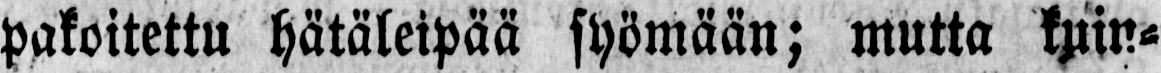pakoitettu hätäleipää syömään; mutta kuin-
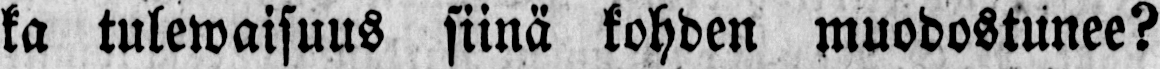ka tulewaisuus siinä kohden muodostunee?
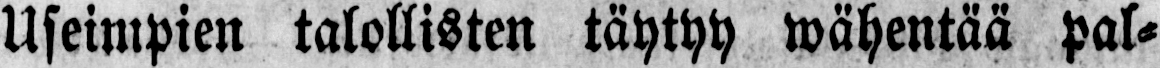Useimpien talollisten täytyy wähentää pal-
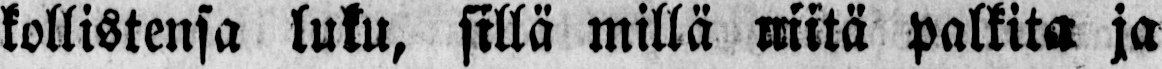kollistensa luku, sillä millä niitä palkita ja
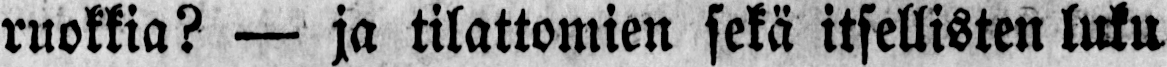ruokkia? — ja tilattomien sekä itsellisten luku
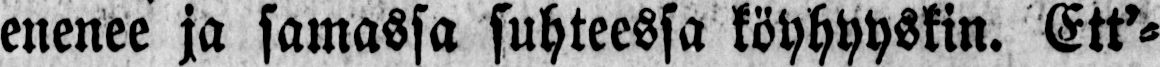enenee ja samassa suhteessa köyhyyskin. Ett'-
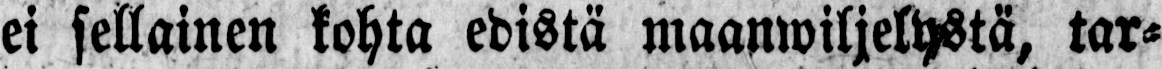ei sellainen kohta edistä maanwiljelystä, tar-
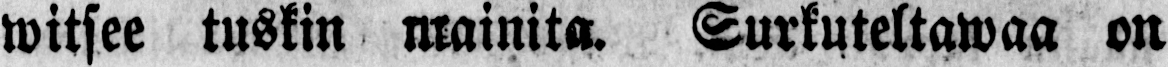witsee tuskin mainita. Surkuteltawaa on
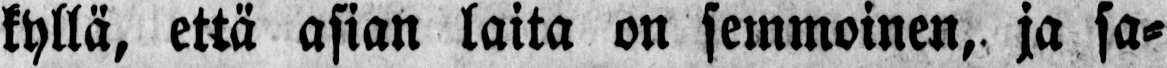kyllä, että asian laita on semmoinen, ja sa-
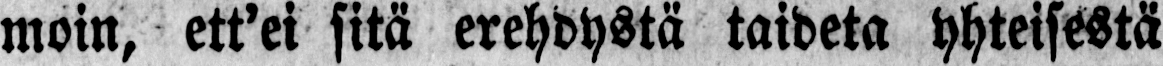moin, ett'ei sitä erehdystä taideta yhteisestä
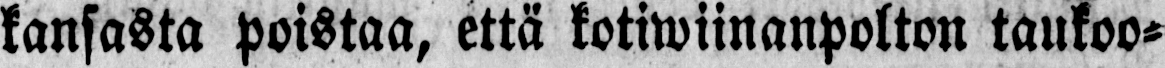kansasta poistaa, että kotiwiinanpolton taukoo-
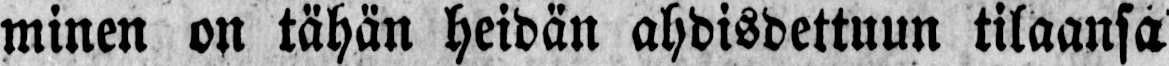minen on tähän heidän ahdisdettuun tilaansa
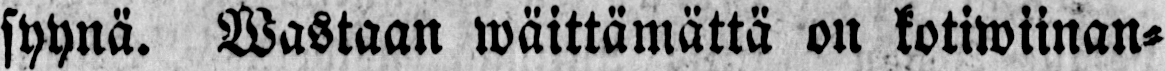syynä. Wastaan wäittämättä on kotiwiinan-
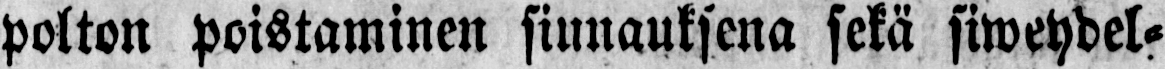polton poistaminen siunauksena sekä siweydel-
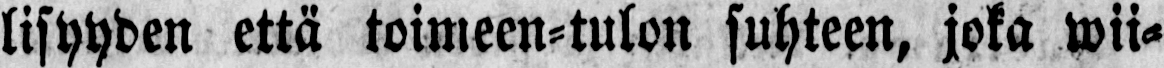lisyyden että toimeen-tulon suhteen, joka wii-
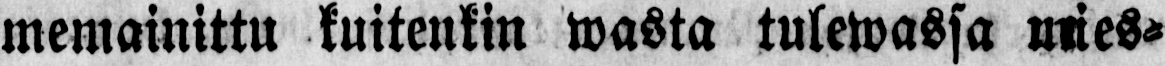memainittu kuitenkin wasta tulewassa mies-
